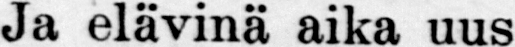da elävinä aika uus
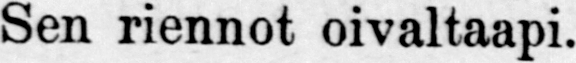Sen riennot oivaltaapi.
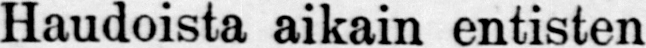Haudoista aikain entisten
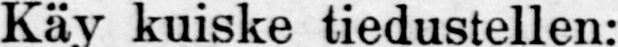Käy kuiske tiedustel1en:
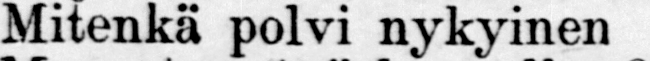Mitenkä polvi nykyinen
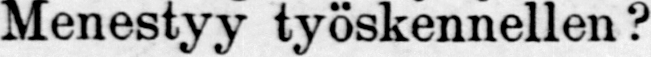Menestyy työskennellen?
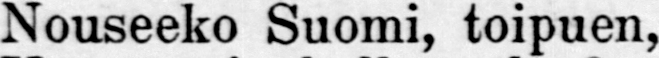Nouseeko Suomi, toipuen,
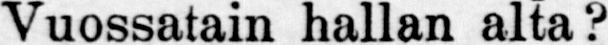Vuossatain hallan alta?
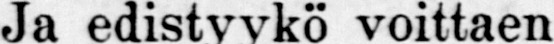ja edistyykö voittaen
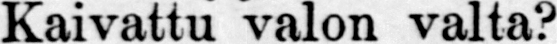Kaivattu valon valta?
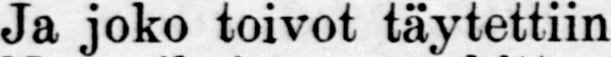ja joko toivot täytettiin
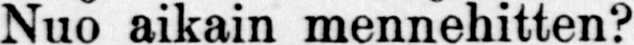Nuo aikain mennehitten?
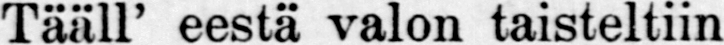Tääll' eestä valon taisteltiin
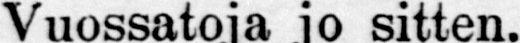Vuossatoja jo sitten.
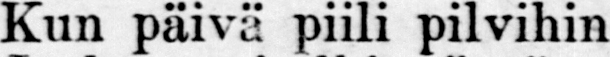Kun päivä piili pilvihin
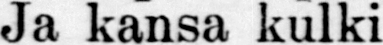ja Kansa kulki Yössä,
